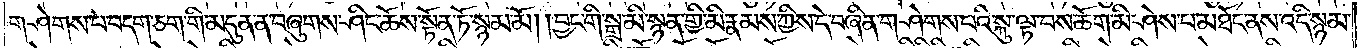གཤེགས་པ་བདག་ཅག་གི་མདུན་ན་བཞུགས་ཤིང་ཆོས་སྟོན་ཏོ་སྙམ་མོ། །བྱང་གི་སྒྲ་མི་སྙན་གྱི་མི་རྣམས་ཀྱིས་དེ་བཞིན་གཤེགས་པའི་སྐུ་ལྟ་བས་ཆོག་མི་ཤེས་པ་མཐོང་ནས་འདི་སྙམ་
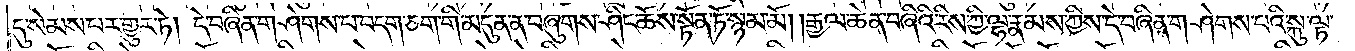དུ་སེམས་པར་གྱུར་ཏེ། དེ་བཞིན་གཤེགས་པ་བདག་ཅག་གི་མདུན་ན་བཞུགས་ཤིང་ཆོས་སྟོན་ཏོ་སྙམ་མོ། །རྒྱལ་ཆེན་བཞིའི་རིས་ཀྱི་ལྷ་རྣམས་ཀྱིས་དེ་བཞིན་གཤེགས་པའི་སྐུ་ལྟ་
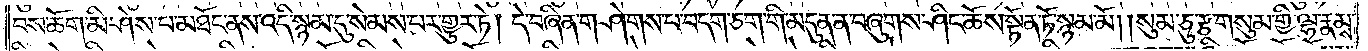བས་ཆོག་མི་ཤེས་པ་མཐོང་ནས་འདི་སྙམ་དུ་སེམས་པར་གྱུར་ཏེ། དེ་བཞིན་གཤེགས་པ་བདག་ཅག་གི་མདུན་ན་བཞུགས་ཤིང་ཆོས་སྟོན་ཏོ་སྙམ་མོ། །སུམ་ཅུ་རྩ་གསུམ་གྱི་ལྷ་རྣམས་
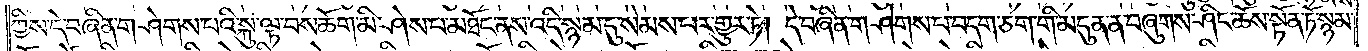ཀྱིས་དེ་བཞིན་གཤེགས་པའི་སྐུ་ལྟ་བས་ཆོག་མི་ཤེས་པ་མཐོང་ནས་འདི་སྙམ་དུ་སེམས་པར་གྱུར་ཏེ། དེ་བཞིན་གཤེགས་པ་བདག་ཅག་གི་མདུན་ན་བཞུགས་ཤིང་ཆོས་སྟོན་ཏོ་སྙམ་
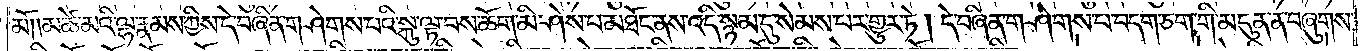མོ། །མཚེ་མའི་ལྷ་རྣམས་ཀྱིས་དེ་བཞིན་གཤེགས་པའི་སྐུ་ལྟ་བས་ཆོག་མི་ཤེས་པ་མཐོང་ནས་འདི་སྙམ་དུ་སེམས་པར་གྱུར་ཏེ། དེ་བཞིན་གཤེགས་པ་བདག་ཅག་གི་མདུན་ན་བཞུགས་
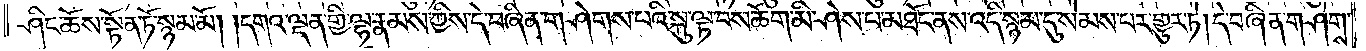ཤིང་ཆོས་སྟོན་ཏོ་སྙམ་མོ། །དགའ་ལྡན་གྱི་ལྷ་རྣམས་ཀྱིས་དེ་བཞིན་གཤེགས་པའི་སྐུ་ལྟ་བས་ཆོག་མི་ཤེས་པ་མཐོང་ནས་འདི་སྙམ་དུ་སེམས་པར་གྱུར་ཏེ། དེ་བཞིན་གཤེགས་
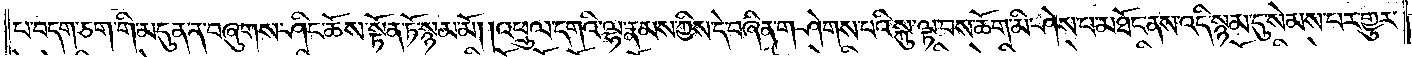པ་བདག་ཅག་གི་མདུན་ན་བཞུགས་ཤིང་ཆོས་སྟོན་ཏོ་སྙམ་མོ། །འཕྲུལ་དགའི་ལྷ་རྣམས་ཀྱིས་དེ་བཞིན་གཤེགས་པའི་སྐུ་ལྟ་བས་ཆོག་མི་ཤེས་པ་མཐོང་ནས་འདི་སྙམ་དུ་སེམས་པར་གྱུར་
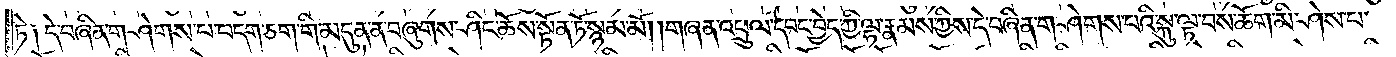ཏེ༑ དེ་བཞིན་གཤེགས་པ་བདག་ཅག་གི་མདུན་ན་བཞུགས་ཤིང་ཆོས་སྟོན་ཏོ་སྙམ་མོ། །གཞན་འཕྲུལ་དབང་བྱེད་ཀྱི་ལྷ་རྣམས་ཀྱིས་དེ་བཞིན་གཤེགས་པའི་སྐུ་ལྟ་བས་ཆོག་མི་ཤེས་པ་
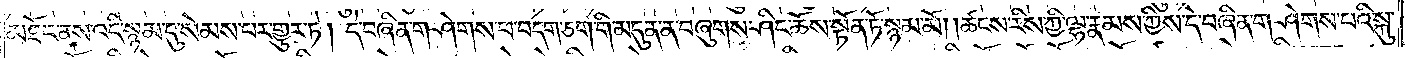མཐོང་ནས་འདི་སྙམ་དུ་སེམས་པར་གྱུར་ཏེ། དེ་བཞིན་གཤེགས་པ་བདག་ཅག་གི་མདུན་ན་བཞུགས་ཤིང་ཆོས་སྟོན་ཏོ་སྙམ་མོ། །ཚངས་རིས་ཀྱི་ལྷ་རྣམས་ཀྱིས་དེ་བཞིན་གཤེགས་པའི་སྐུ་
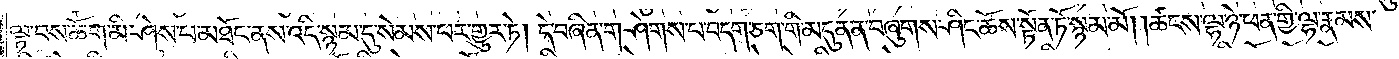ལྟ་བས་ཆོག་མི་ཤེས་པ་མཐོང་ནས་འདི་སྙམ་དུ་སེམས་པར་གྱུར་ཏེ། དེ་བཞིན་གཤེགས་པ་བདག་ཅག་གི་མདུན་ན་བཞུགས་ཤིང་ཆོས་སྟོན་ཏོ་སྙམ་མོ། །ཚངས་ལྷ་ཉེ་ཕན་གྱི་ལྷ་རྣམས་
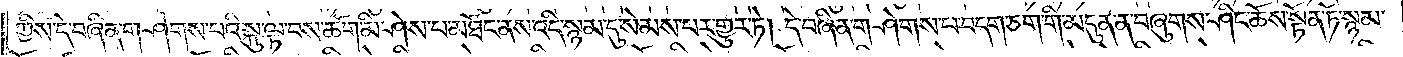ཀྱིས་དེ་བཞིན་གཤེགས་པའི་སྐུ་ལྟ་བས་ཆོག་མི་ཤེས་པ་མཐོང་ནས་འདི་སྙམ་དུ་སེམས་པར་གྱུར་ཏེ། དེ་བཞིན་གཤེགས་པ་བདག་ཅག་གི་མདུན་ན་བཞུགས་ཤིང་ཆོས་སྟོན་ཏོ་སྙམ་
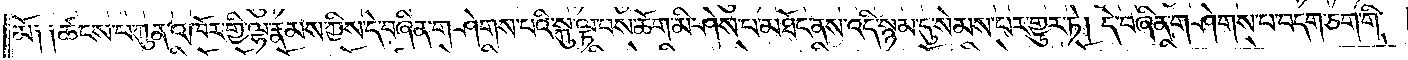མོ༑ ༑ཚངས་པ་ཀུན་འཁོར་གྱི་ལྷ་རྣམས་ཀྱིས་དེ་བཞིན་གཤེགས་པའི་སྐུ་ལྟ་བས་ཆོག་མི་ཤེས་པ་མཐོང་ནས་འདི་སྙམ་དུ་སེམས་པར་གྱུར་ཏེ། དེ་བཞིན་གཤེགས་པ་བདག་ཅག་གི་
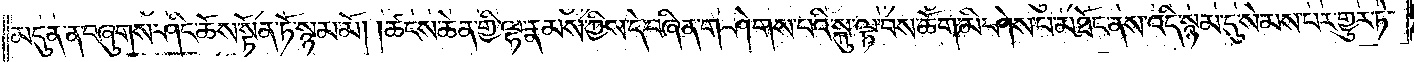མདུན་ན་བཞུགས་ཤིང་ཆོས་སྟོན་ཏོ་སྙམ་མོ། །ཚངས་ཆེན་གྱི་ལྷ་རྣམས་ཀྱིས་དེ་བཞིན་གཤེགས་པའི་སྐུ་ལྟ་བས་ཆོག་མི་ཤེས་པ་མཐོང་ནས་འདི་སྙམ་དུ་སེམས་པར་གྱུར་ཏེ་
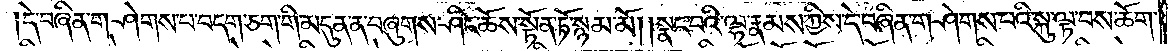དེ་བཞིན་གཤེགས་པ་བདག་ཅག་གི་མདུན་ན་བཞུགས་ཤིང་ཆོས་སྟོན་ཏོ་སྙམ་མོ། །སྣང་བའི་ལྷ་རྣམས་ཀྱིས་དེ་བཞིན་གཤེགས་པའི་སྐུ་ལྟ་བས་ཆོག་
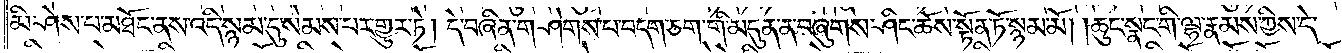མི་ཤེས་པ་མཐོང་ནས་འདི་སྙམ་དུ་སེམས་པར་གྱུར་ཏེ། དེ་བཞིན་གཤེགས་པ་བདག་ཅག་གི་མདུན་ན་བཞུགས་ཤིང་ཆོས་སྟོན་ཏོ་སྙམ་མོ། །ཆུང་སྣང་གི་ལྷ་རྣམས་ཀྱིས་དེ་
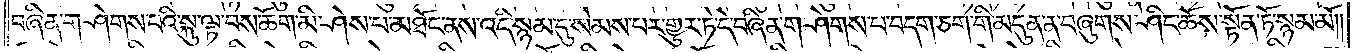བཞིན་གཤེགས་པའི་སྐུ་ལྟ་བས་ཆོག་མི་ཤེས་པ་མཐོང་ནས་འདི་སྙམ་དུ་སེམས་པར་གྱུར་ཏེ་དེ་བཞིན་གཤེགས་པ་བདག་ཅག་གི་མདུན་ན་བཞུགས་ཤིང་ཆོས་སྟོན་ཏོ་སྙམ་མོ༎
